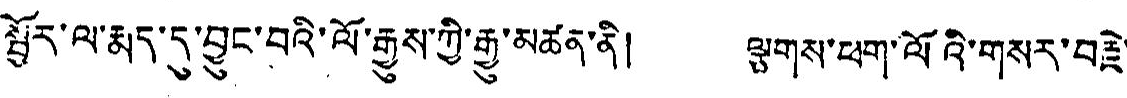སྦྱོར་ལ་རྨད་དུ་བྱུང་བའི་ལོ་རྒྱུས་ཀྱི་རྒྱུ་མཚན་ནི། ལྕགས་ཕག་ལོའི་གསར་བརྗེ་
